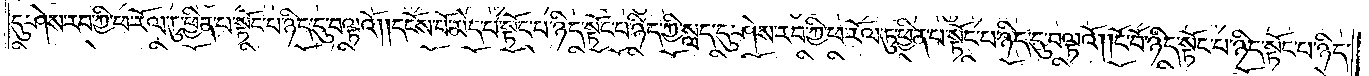དུ་ཤེས་རབ་ཀྱི་ཕ་རོལ་ཏུ་ཕྱིན་པ་སྟོང་པ་ཉིད་དུ་བལྟའོ། །དངོས་པོ་མེད་པ་སྟོང་པ་ཉིད་སྟོང་པ་ཉིད་ཀྱི་སླད་དུ་ཤེས་རབ་ཀྱི་ཕ་རོལ་ཏུ་ཕྱིན་པ་སྟོང་པ་ཉིད་དུ་བལྟའོ། །ངོ་བོ་ཉིད་སྟོང་པ་ཉིད་སྟོང་པ་ཉིད་
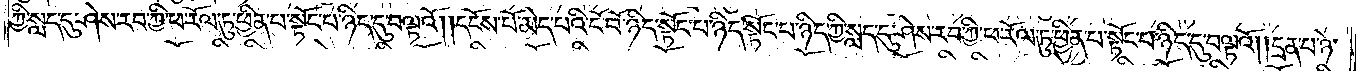ཀྱི་སླད་དུ་ཤེས་རབ་ཀྱི་ཕ་རོལ་ཏུ་ཕྱིན་པ་སྟོང་པ་ཉིད་དུ་བལྟའོ། །དངོས་པོ་མེད་པའི་ངོ་བོ་ཉིད་སྟོང་པ་ཉིད་སྟོང་པ་ཉིད་ཀྱི་སླད་དུ་ཤེས་རབ་ཀྱི་ཕ་རོལ་ཏུ་ཕྱིན་པ་སྟོང་པ་ཉིད་དུ་བལྟའོ། །དྲན་པ་ཉེ་
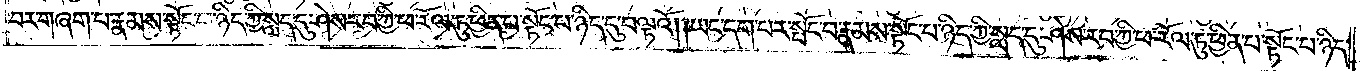བར་གཞག་པ་རྣམས་སྟོང་པ་ཉིད་ཀྱི་སླད་དུ་ཤེས་རབ་ཀྱི་ཕ་རོལ་ཏུ་ཕྱིན་པ་སྟོང་པ་ཉིད་དུ་བལྟའོ། །ཡང་དག་པར་སྤོང་བ་རྣམས་སྟོང་པ་ཉིད་ཀྱི་སླད་དུ་ཤེས་རབ་ཀྱི་ཕ་རོལ་ཏུ་ཕྱིན་པ་སྟོང་པ་ཉིད་
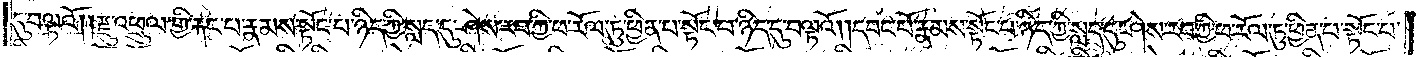དུ་བལྟའོ། །རྫུ་འཕྲུལ་གྱི་རྐང་པ་རྣམས་སྟོང་པ་ཉིད་ཀྱི་སླད་དུ་ཤེས་རབ་ཀྱི་ཕ་རོལ་ཏུ་ཕྱིན་པ་སྟོང་པ་ཉིད་དུ་བལྟའོ། །དབང་པོ་རྣམས་སྟོང་པ་ཉིད་ཀྱི་སླད་དུ་ཤེས་རབ་ཀྱི་ཕ་རོལ་ཏུ་ཕྱིན་པ་སྟོང་པ་
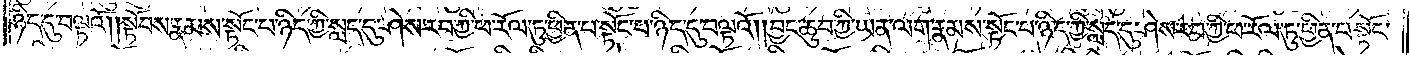ཉིད་དུ་བལྟའོ། །སྟོབས་རྣམས་སྟོང་པ་ཉིད་ཀྱི་སླད་དུ་ཤེས་རབ་ཀྱི་ཕ་རོལ་ཏུ་ཕྱིན་པ་སྟོང་པ་ཉིད་དུ་བལྟའོ། །བྱང་ཆུབ་ཀྱི་ཡན་ལག་རྣམས་སྟོང་པ་ཉིད་ཀྱི་སླད་དུ་ཤེས་རབ་ཀྱི་ཕ་རོལ་ཏུ་ཕྱིན་པ་སྟོང་
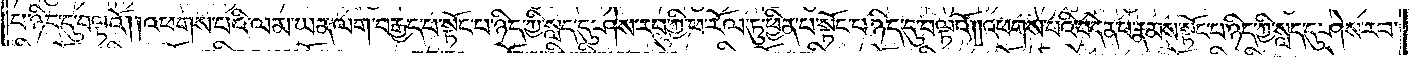པ་ཉིད་དུ་བལྟའོ། །འཕགས་པའི་ལམ་ཡན་ལག་བརྒྱད་པ་སྟོང་པ་ཉིད་ཀྱི་སླད་དུ་ཤེས་རབ་ཀྱི་ཕ་རོལ་ཏུ་ཕྱིན་པ་སྟོང་པ་ཉིད་དུ་བལྟའོ། །འཕགས་པའི་བདེན་པ་རྣམས་སྟོང་པ་ཉིད་ཀྱི་སླད་དུ་ཤེས་རབ་
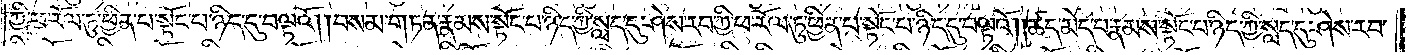ཀྱི་ཕ་རོལ་ཏུ་ཕྱིན་པ་སྟོང་པ་ཉིད་དུ་བལྟའོ། །བསམ་གཏན་རྣམས་སྟོང་པ་ཉིད་ཀྱི་སླད་དུ་ཤེས་རབ་ཀྱི་ཕ་རོལ་ཏུ་ཕྱིན་པ་སྟོང་པ་ཉིད་དུ་བལྟའོ། །ཚད་མེད་པ་རྣམས་སྟོང་པ་ཉིད་ཀྱི་སླད་དུ་ཤེས་རབ་
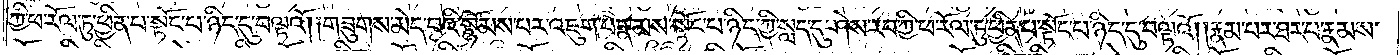ཀྱི་ཕ་རོལ་ཏུ་ཕྱིན་པ་སྟོང་པ་ཉིད་དུ་བལྟའོ། །གཟུགས་མེད་པའི་སྙོམས་པར་འཇུག་པ་རྣམས་སྟོང་པ་ཉིད་ཀྱི་སླད་དུ་ཤེས་རབ་ཀྱི་ཕ་རོལ་ཏུ་ཕྱིན་པ་སྟོང་པ་ཉིད་དུ་བལྟའོ། །རྣམ་པར་ཐར་པ་རྣམས་
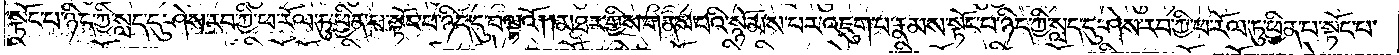སྟོང་པ་ཉིད་ཀྱི་སླད་དུ་ཤེས་རབ་ཀྱི་ཕ་རོལ་ཏུ་ཕྱིན་པ་སྟོང་པ་ཉིད་དུ་བལྟའོ། །མཐར་གྱིས་གནས་པའི་སྙོམས་པར་འཇུག་པ་རྣམས་སྟོང་པ་ཉིད་ཀྱི་སླད་དུ་ཤེས་རབ་ཀྱི་ཕ་རོལ་ཏུ་ཕྱིན་པ་སྟོང་པ་
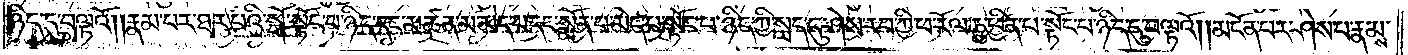ཉིད་དུ་བལྟའོ། །རྣམ་པར་ཐར་པའི་སྒོ་སྟོང་པ་ཉིད་དང་མཚན་མ་མེད་པ་དང་སྨོན་པ་མེད་པ་སྟོང་པ་ཉིད་ཀྱི་སླད་དུ་ཤེས་རབ་ཀྱི་ཕ་རོལ་ཏུ་ཕྱིན་པ་སྟོང་པ་ཉིད་དུ་བལྟའོ། །མངོན་པར་ཤེས་པ་རྣམས་
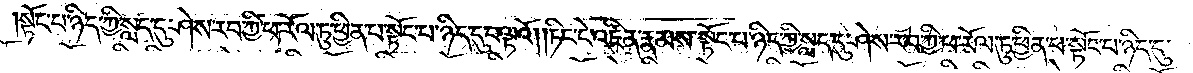སྟོང་པ་ཉིད་ཀྱི་སླད་དུ་ཤེས་རབ་ཀྱི་ཕ་རོལ་ཏུ་ཕྱིན་པ་སྟོང་པ་ཉིད་དུ་བལྟའོ། །ཏིང་ངེ་འཛིན་རྣམས་སྟོང་པ་ཉིད་ཀྱི་སླད་དུ་ཤེས་རབ་ཀྱི་ཕ་རོལ་ཏུ་ཕྱིན་པ་སྟོང་པ་ཉིད་དུ་
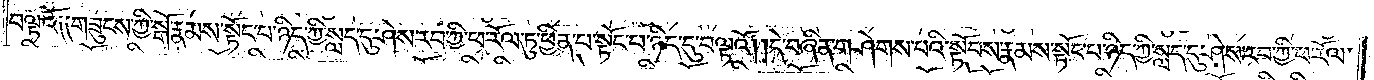བལྟའོ༑ ༑གཟུངས་ཀྱི་སྒོ་རྣམས་སྟོང་པ་ཉིད་ཀྱི་སླད་དུ་ཤེས་རབ་ཀྱི་ཕ་རོལ་ཏུ་ཕྱིན་པ་སྟོང་པ་ཉིད་དུ་བལྟའོ། །དེ་བཞིན་གཤེགས་པའི་སྟོབས་རྣམས་སྟོང་པ་ཉིད་ཀྱི་སླད་དུ་ཤེས་རབ་ཀྱི་ཕ་རོལ་
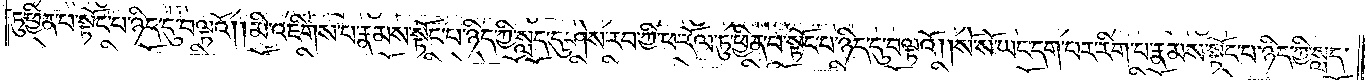ཏུ་ཕྱིན་པ་སྟོང་པ་ཉིད་དུ་བལྟའོ། །མི་འཇིགས་པ་རྣམས་སྟོང་པ་ཉིད་ཀྱི་སླད་དུ་ཤེས་རབ་ཀྱི་ཕ་རོལ་ཏུ་ཕྱིན་པ་སྟོང་པ་ཉིད་དུ་བལྟའོ། །སོ་སོ་ཡང་དག་པར་རིག་པ་རྣམས་སྟོང་པ་ཉིད་ཀྱི་སླད་
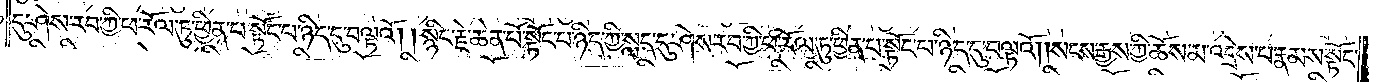དུ་ཤེས་རབ་ཀྱི་ཕ་རོལ་ཏུ་ཕྱིན་པ་སྟོང་པ་ཉིད་དུ་བལྟའོ། །སྙིང་རྗེ་ཆེན་པོ་སྟོང་པ་ཉིད་ཀྱི་སླད་དུ་ཤེས་རབ་ཀྱི་ཕ་རོལ་ཏུ་ཕྱིན་པ་སྟོང་པ་ཉིད་དུ་བལྟའོ། །སངས་རྒྱས་ཀྱི་ཆོས་མ་འདྲེས་པ་རྣམས་སྟོང་
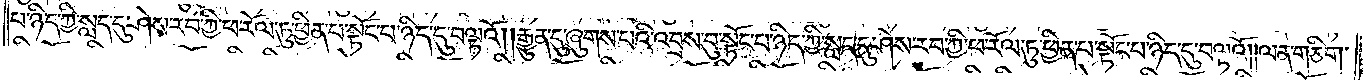པ་ཉིད་ཀྱི་སླད་དུ་ཤེས་རབ་ཀྱི་ཕ་རོལ་ཏུ་ཕྱིན་པ་སྟོང་པ་ཉིད་དུ་བལྟའོ། །རྒྱུན་དུ་ཞུགས་པའི་འབྲས་བུ་སྟོང་པ་ཉིད་ཀྱི་སླད་དུ་ཤེས་རབ་ཀྱི་ཕ་རོལ་ཏུ་ཕྱིན་པ་སྟོང་པ་ཉིད་དུ་བལྟའོ། །ལན་གཅིག་
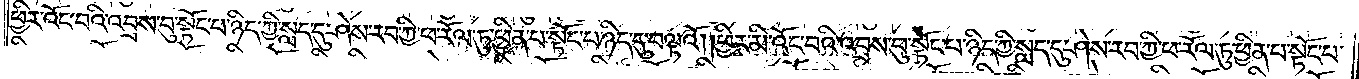ཕྱིར་འོང་བའི་འབྲས་བུ་སྟོང་པ་ཉིད་ཀྱི་སླད་དུ་ཤེས་རབ་ཀྱི་ཕ་རོལ་ཏུ་ཕྱིན་པ་སྟོང་པ་ཉིད་དུ་བལྟའོ། །ཕྱིར་མི་འོང་བའི་འབྲས་བུ་སྟོང་པ་ཉིད་ཀྱི་སླད་དུ་ཤེས་རབ་ཀྱི་ཕ་རོལ་ཏུ་ཕྱིན་པ་སྟོང་པ་
